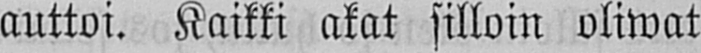auttoi. Kaikki akat silloin oliwat
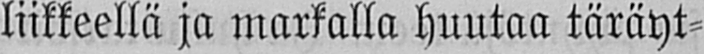liikkeellä ja markalla huutaa täräyt-
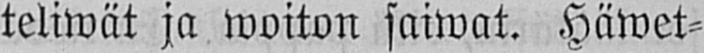teliwät ja woiton saiwat. Häwet-
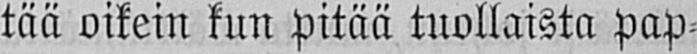tää oikein kun pitää tuollaista pap-
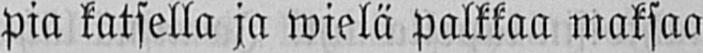pia katsella ja wielä palkkaa maksaa
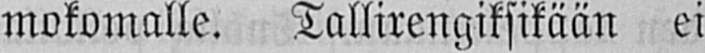mokomalle. Tallirengiksikään ei
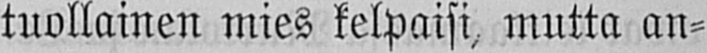tuollainen mies kelpaisi, mutta an-
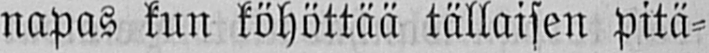napas kun köhöttää tällaisen pitä-
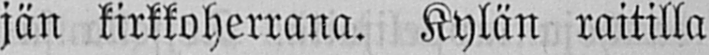jän kirkkoherrana. Kylän raitilla
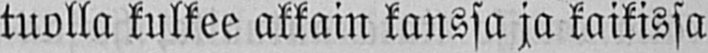tuolla kulkee akkain kanssa ja kaikissa
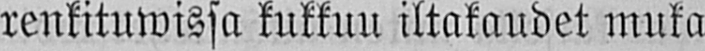renkituwissa kukkuu iltakaudet muka
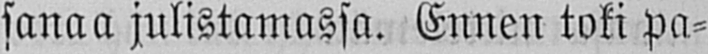sanaa julistamassa. Ennen toki pa-
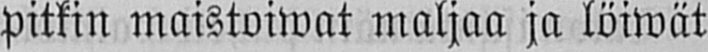pitkin maistoiwat maljaa ja löiwät
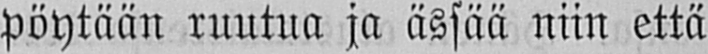pöytään ruutua ja ässää niin että
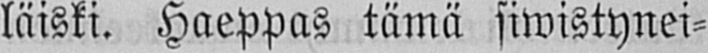läiski. Haeppas tämä siwistynei-
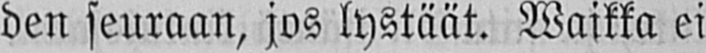den seuraan, jos lystäät. Waikka ei
